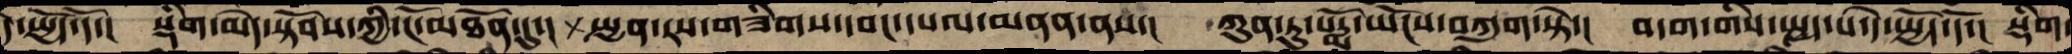དེ་སྤྱོད་དོ་། སྡིག་མེད་སྟོབས་ཀྱི་ངོ་མཐོན་དུ་། སྤྱན་རས་གཟིགས་དབང་དཔལ་མནན་ནས་། ཀུན་ཏུ་པདྨོ་ཡོངས་བཀུག་སྟེ་། བདག་གིས་སྤྱད་པ་དེ་སྤྱོད་དོ་། སྡིག་
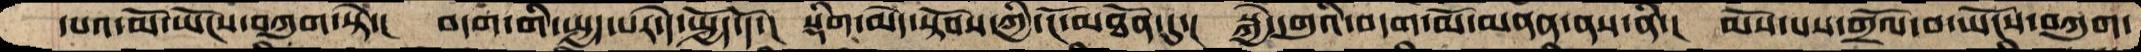དཔའ་མོ་ཡོངས་བཀུག་སྟེ་།  བདག་གི་སྤྱད་པར་དེ་སྤྱོད་དོ་།  སྡིག་མེད་སྟོབས་ཀྱི་ངོ་མཐོན་དུ་།  སྐྱེ་དགུའི་བདག་མོ་མནན་ནས་ནི་།  མོས་པས་གྲོལ་བ་ཡོངས་བཀུག་
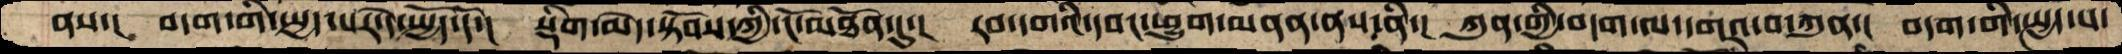ནས་།  བདག་གི་སྤྱད་པར་དེ་སྤྱོད་དོ་།  སྡིག་མེད་སྟོབས་ཀྱི་ངོ་མཐོན་དུ་།  རབ་དགའི་དབང་ཕྱུག་མནན་ནས་ནི་།  ཀུན་གྱི་བདག་ལ་དགའ་བ་ཀུན་།  བདག་གི་སྤྱད་པ་
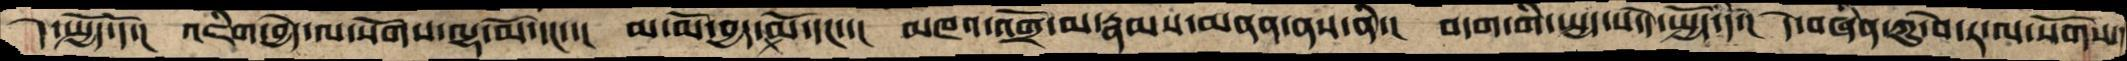དེ་སྤྱོད་དོ་། འཇིག་བྱེད་ལ་སོགས་ལྷ་མོ་དང་་། མ་མོ་བྱད་མོ་དང་་། མཁའ་འགྲོ་མ་རྣམས་མནན་ནས་ནི་། བདག་གི་སྤྱད་པ་དེ་སྤྱོད་དོ་། དེ་བཞིན་ཀུ་བེ་ར་ལ་སོགས་།
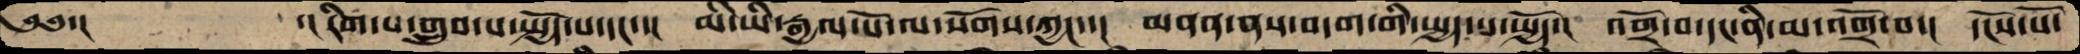༄༅་།     ་།རིག་པ་གྲུབ་པ་སྤྱོད་པ་དང་་།  མི་ཡི་རྒྱལ་པོ་ལ་སོགས་ཀྱང་་།  མནན་ནས་བདག་གི་སྤྱད་པ་སྤྱོད་།  འགྲོ་བ་དང་ནི་མ་འགྲོ་བ་།  དངོས་པོ་
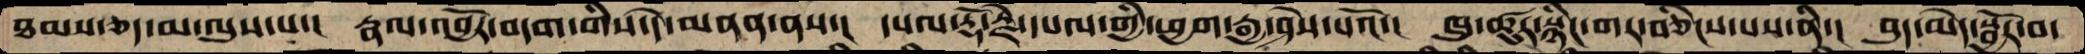ཐམས་ཅད་མ་ལུས་པ་།  རྣལ་འབྱོར་བདག་གིས་དེ་མནན་ནས་།  དཔལ་རྡོ་རྗེ་དཔལ་གྱི་ཕྱག་རྒྱ་ཤེས་པའོ་།  ཁུ་ཚུར་སྙིང་གར་བཅིངས་པས་ནི་།  བུད་མེད་སྦྱོར་བ་
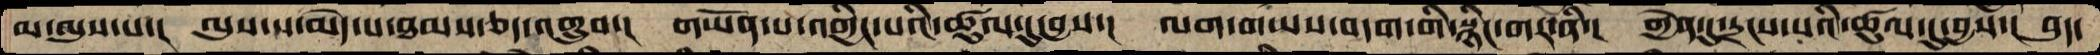མ་ལུས་པ་།  ལུས་པ་མེད་པ་ཐམས་ཅད་འགྲུབ་།  གཡོན་པ་འགྱིང་པའི་ཚུལ་དུ་བྱས་།  ལག་གཡས་བདག་གི་སྙིང་གར་ནི་།  གྱེན་དུ་དྲངས་པའི་ཚུལ་དུ་བྱས་།  བུད་
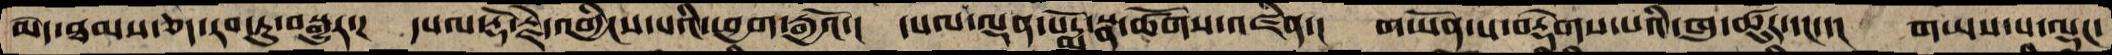མེད་ཐམས་ཅད་རབ་ཏུ་བསྒྱུར་།  དཔལ་རྡོ་རྗེ་འགྱིངས་པའི་ཕྱག་རྒྱའོ་།  དཔལ་ལྡན་པདྨོ་སྣ་ཚོགས་འཛིན་།  གཡོན་པ་བརྡེགས་པའི་ཁུ་ཚུར་དང་་།  གཡས་པ་ལྡང་
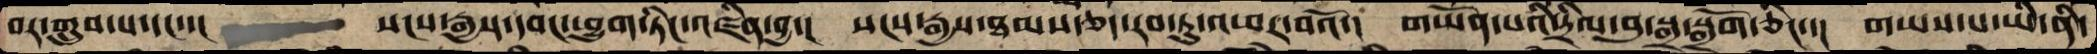བར་གྲུབ་པ་དང་་།    སངས་རྒྱས་དབང་ཕྱུག་ཏིང་འཛིན་བྱ་།  སངས་རྒྱས་ཐམས་ཅད་རབ་ཏུ་འཕར་བའོ་།  གཡོན་པའི་དྲིལ་བུ་སྒྲ་སྒྲོག་ཅིང་་།  གཡས་པ་ཡི་ནི་
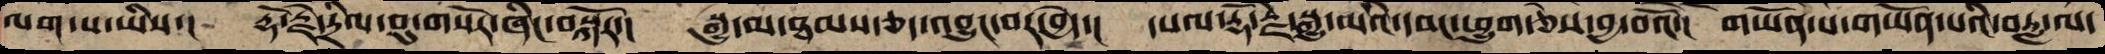ལག་པ་ཡིས་།  རྡོ་རྗེ་དྲིལ་བུ་གསོར་ཞིང་བསྐོར་།  སྒྱུ་མ་ཐམས་ཅད་འབྱུང་བར་བྱེད་།  དཔལ་རྡོ་རྗེ་སྒྱུ་མའི་དབང་ཕྱུག་ཅེས་བྱ་བའོ་།  གཡོན་པ་གཡོན་པའི་བརླ་ལ་
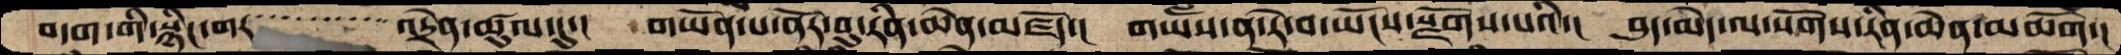བདག་གི་སྙིང་གར         འདྲེན་ཚུལ་དུ་།  གཡོན་པ་ནོར་བུ་རིན་ཆེན་མཛོད་།  གཡས་ན་རེ་བ་ཡོངས་སྫོགས་པའི་།  བུད་མེད་ལ་སོགས་རིན་ཆེན་མཆོག་།
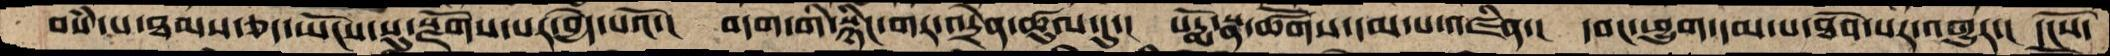བསཾ་པ་ཐམས་ཅད་ཡོངས་སུ་སྫོགས་པར་བྱེད་པའོ་།  བདག་གི་སྙིང་གར་འདྲེན་ཚུལ་དུ་།  པདྨོ་སྣ་ཚོགས་དམ་པ་འཛིན་།  དབང་ཕྱུག་དམ་པ་ཐོབ་པར་འགྱུར་།  དངོས་
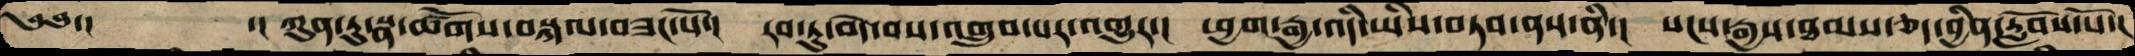༄༅་།     ་། ཀུན་ཏུ་སྣ་ཚོགས་བསྐལ་བཟང་པོ་།  རབ་ཏུ་བདེ་བས་འགྲུབ་པར་འགྱུར་།  ཕྱག་རྒྱ་འདི་ཡིས་བཏབ་ནས་ནི་།  སངས་རྒྱས་ཐམས་ཅད་བྱིན་རློབས་སོ་།
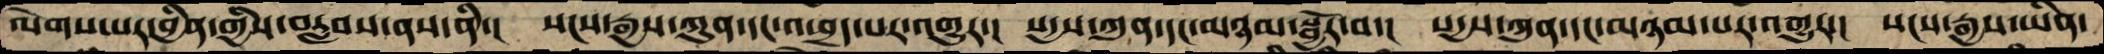ལེགས་པར་བྱིན་གྱིས་བརླབས་ནས་ནི་།  སངས་རྒྱས་ཀུན་དང་འཕྲད་པར་འགྱུར་།  སདྱས་ཀུན་དང་མཉམ་སྦྱོར་བ་།  སདྱས་ཀུན་དང་མཉམ་པར་འགྱུར་།  སངས་རྒྱས་ཡིན་
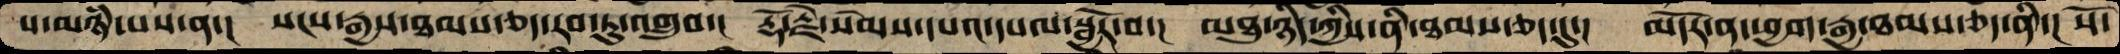པ་མཉཾ་པས་ན་།  སངས་རྒྱས་ཐམས་ཅད་རབ་ཏུ་འགྲུབ་།  རྡོ་རྗེ་སེམས་དཔའ་དཔལ་སྦྱོར་བ་།  མཐུ་ཉིད་ཀྱིས་ནི་ཐམས་ཅད་དུ་།  མདོར་ན་ཕྱག་རྒྱ་ཐམས་ཅད་ནི་།  སོ་
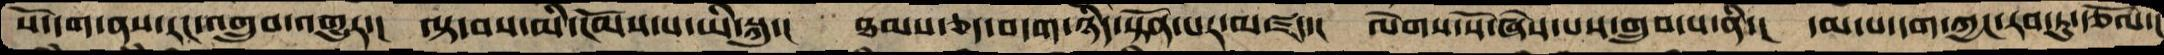སོ་དག་ནས་རང་འགྲུབ་འགྱུར་།  ལྟ་བས་མི་ངོམས་པ་ཡི་སྐུ་།  ཐམས་ཅད་བདག་ཉིད་སྟོན་པར་མཛད་།  ལེགས་སོ་ཞེས་པས་གྲུབ་པ་ནི་།  དམ་པ་དག་ཀྱང་རབ་ཏུ་རྩོལ་།
